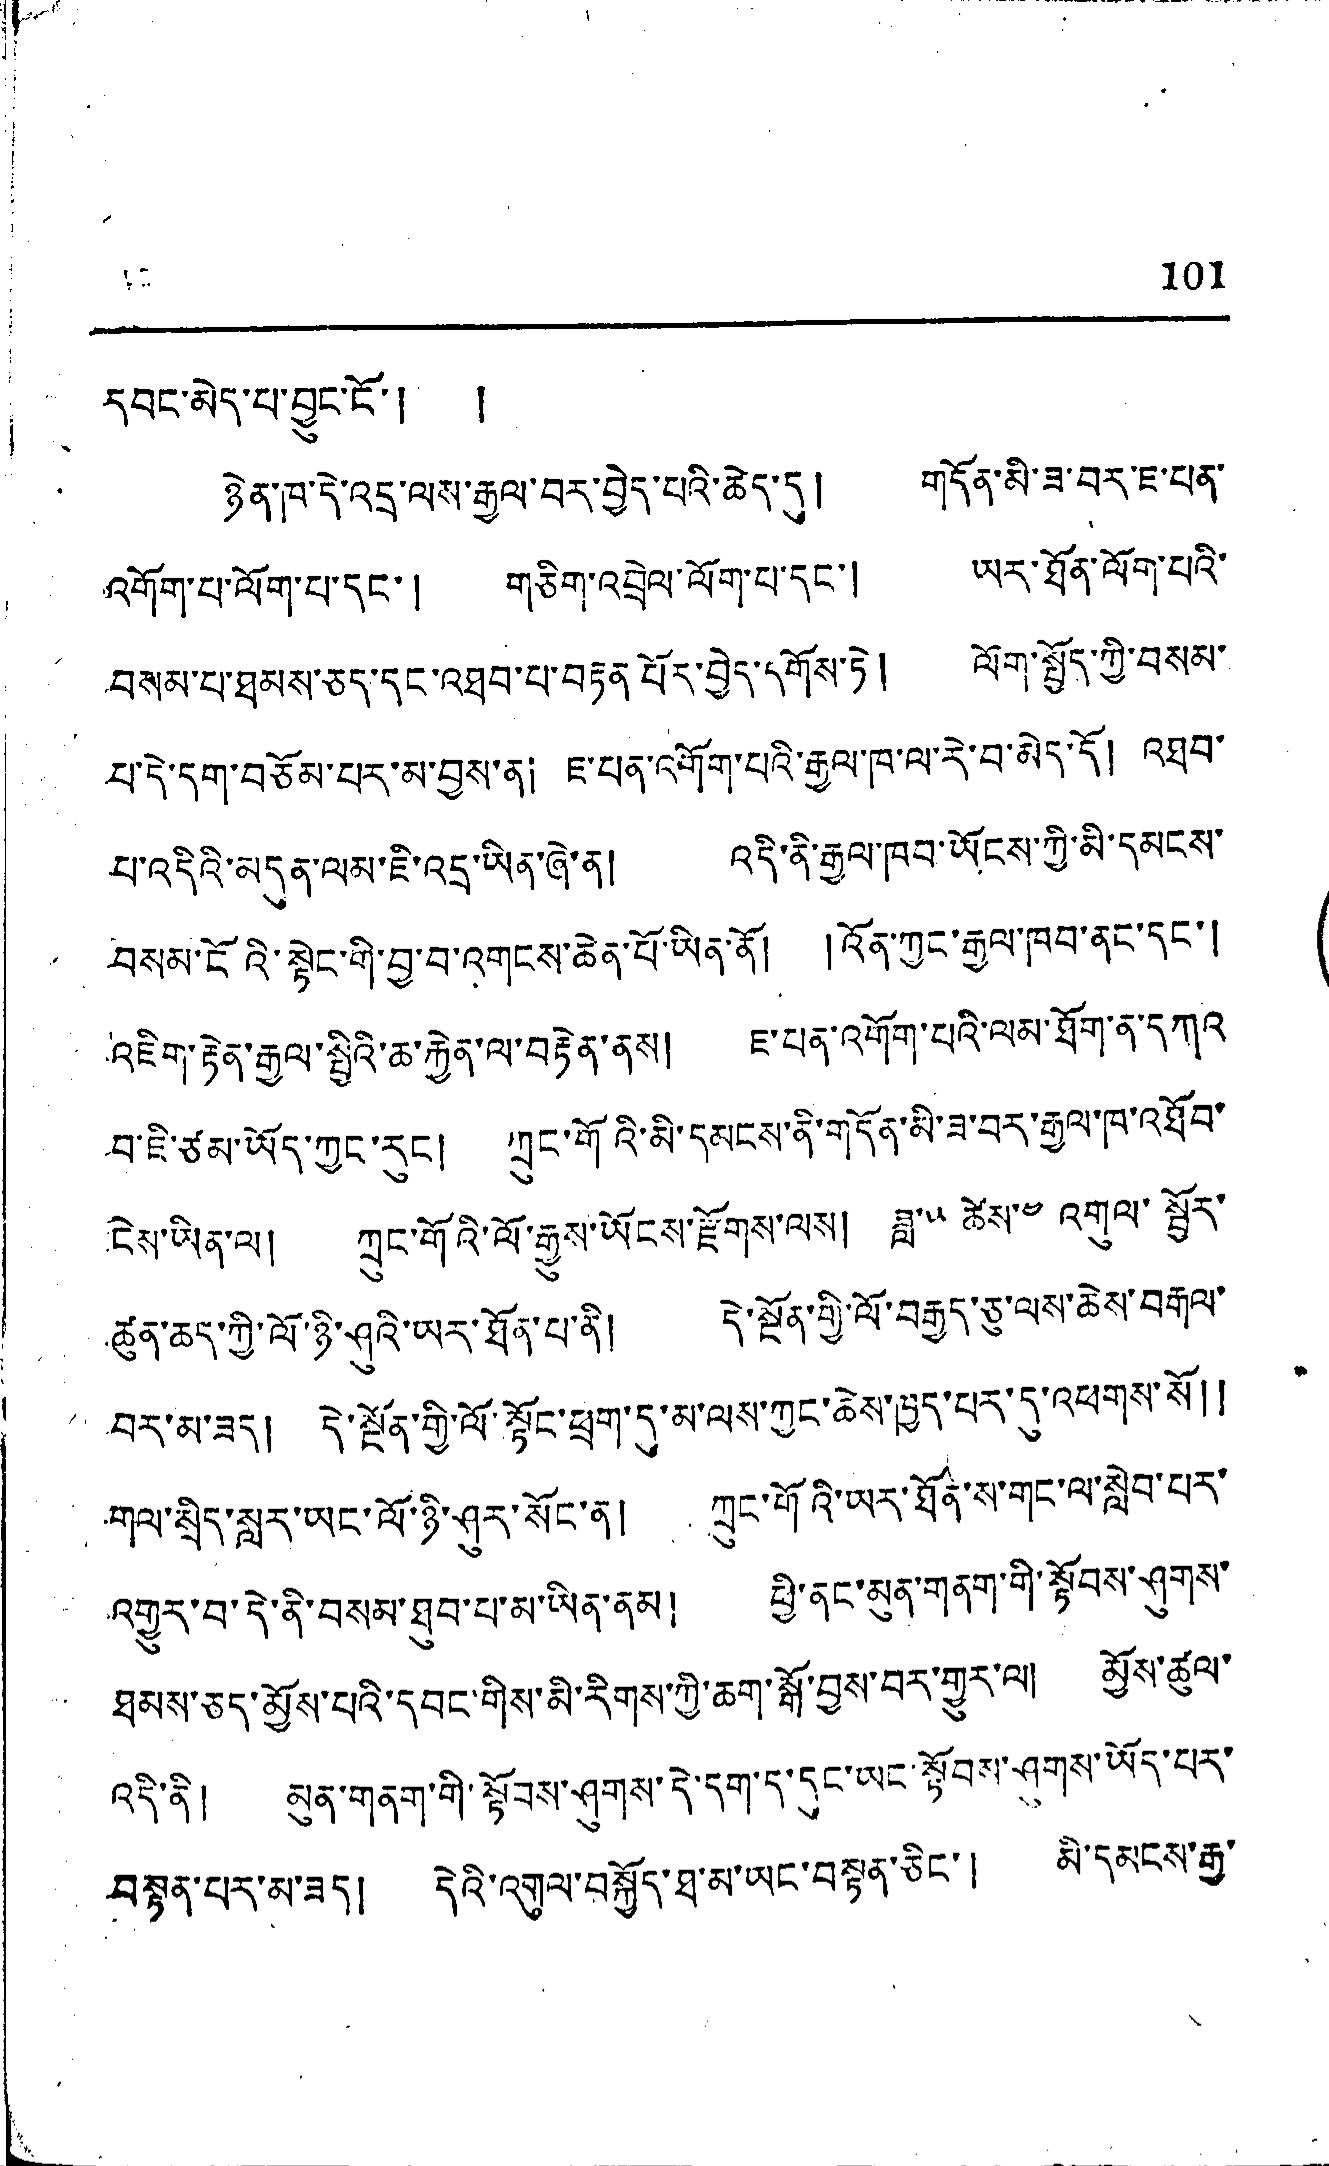101
དབང་མེད་པ་བྱུང་ངོ་། །
ཉེན་ཁ་དེ་འདྲ་ལས་རྒྱལ་བར་བྱེད་པའི་ཆེད་དུ། གདོན་མི་ཟ་བར་ཇ་པན་
འགོག་པ་ལོག་པ་དང་། གཅིག་འབྲེལ་ལོག་པ་དང་། ཡར་ཐོན་ལོག་པའི་
བསམ་པ་ཐམས་ཅད་དང་འཐབ་པ་བརྟན པོར་བྱེད་དགོས་ཏེ། ལོག་སྤྱོད་ཀྱི་བསམ་
པ་དེ་དག་བཅོམ་པར་མ་བྱས་ན། ཇ་པན་འགོག་པའི་རྒྱལ་ཁ་ལ་རེ་བ་མེད་དོ། འཐབ་
པ་འདིའི་མདུན་ལམ་ཇི་འདྲ་ཡིན་ཞེ་ན། འདི་ནི་རྒྱལ་ཁབ་ཡོངས་ཀྱི་མི་དམངས་
བསམ་ངོའི་སྟེང་གི་བྱ་བ་འགངས་ཆེན་པོ་ཡིན་ནོ། །འོན་ཀྱང་རྒྱལ་ཁབ་ནང་དང་།
འཇིག་རྟེན་རྒྱལ་སྤྱིའི་ཆ་རྐྱེན་ལ་བརྟེན་ནས། ཇ་པན་འགོག་པའི་ལམ་ཐོག་ན་དཀའ
བ་ཇི་ཙམ་ཡོད་ཀྱང་རུང། ཀྲུང་གོའི་མི་དམངས་ནི་གདོན་མི་ཟ་བར་རྒྱལ་ཁ་འཐོབ་
ངེས་ཡིན་ལ། ཀྲུང་གོའི་ལོ་རྒྱུས་ཡོངས་རྫོགས་ལས། ཟླ་༥ ཚེས་༤ འགུལ་སྦྱོར་
ཚུན་ཆད་ཀྱི་ལོ་ཉི་ཤུའི་ཡར་ཐོན་པ་ནི། དེ་སྔོན་གྱི་ལོ་བརྒྱད་ཅུ་ལས་ཆེས་བརྒལ་
བར་མ་ཟད། དེ་སྔོན་གྱི་ལོ་སྟོང་ཕྲག་དུ་མ་ལས་ཀྱང་ཆེས་ཁྱད་པར་དུ་འཕགས་སོ༎
གལ་སྲིད་སླར་ཡང་ལོ་ཉི་ཤུར་སོང་ན། ཀྲུང་གོའི་ཡར་ཐོན་ས་གང་ལ་སླེབ་པར་
འགྱུར་བ་དེ་ནི་བསམ་ཐུབ་པ་མ་ཡིན་ནམ། ཕྱི་ནང་མུན་གནག་གི་སྟོབས་ཤུགས་
ཐམས་ཅད་མྱོས་པའི་དབང་གིས་མི་རིགས་ཀྱི་ཆག་སྒྲོ་བྱས་བར་གྱུར་ལ། མྱོས་ཚུལ་
འདི་ནི། མུན་གནག་གི་སྟོབས་ཤུགས་དེ་དག་ད་དུང་ཡང་སྟོབས་ཤུགས་ཡོད་པར་
བསྟན་པར་མ་ཟད། དེའི་འགུལ་བསྐྱོད་ཐ་མ་ཡང་བསྟན་ཅིང་། མི་དམངས་རྒྱ་
